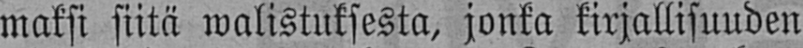maksi siitä walistuksesta, jonka kirjallisuuden
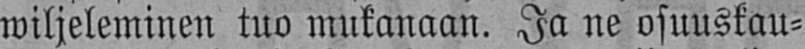wiljeleminen tuo mukanaan. Ja ne osuuskau-
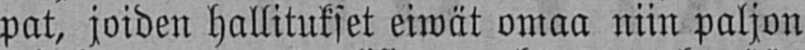pat, joiden hallitukset eiwät omaa niin paljon
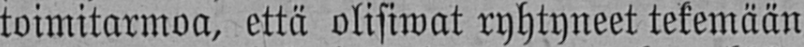toimitarmoa, että olisiwat ryhtyneet tekemään
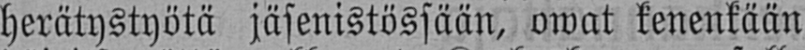herätystyötä jäsenistössään, owat kenenkään
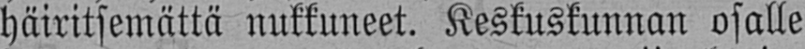häiritsemättä nukkuneet. Keskuskunnan osalle
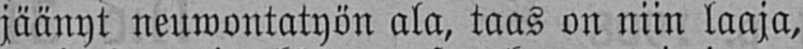jäänyt neuwontatyön ala, taas on niin laaja,
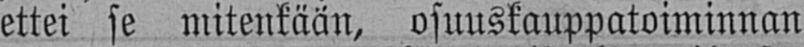ettei se mitenkään, osuuskauppatoiminnan
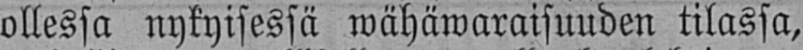ollessa nykyisessä wähäwaraisuuden tilassa,
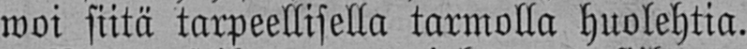woi siitä tarpeellisella tarmolla huolehtia.
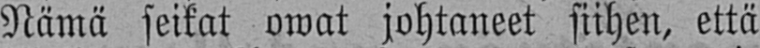Nämä seikat owat johtaneet siihen, että
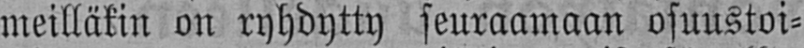meilläkin on ryhdytty seuraamaan osuustoi-
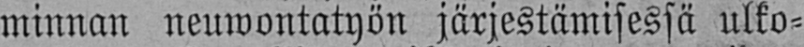minnan neuwontatyön järjestämisessä ulko-
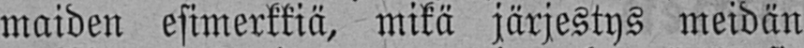maiden esimerkkiä, mikä järjestys meidän
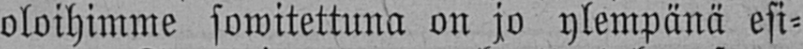oloihimme sowitettuna on jo ylempänä esi-
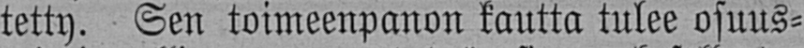tetty. Sen toimeenpanon kautta tulee osuus-
